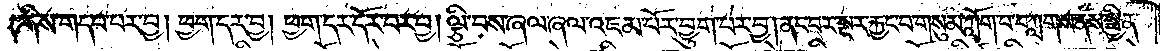གིས་གདབ་པར་བྱ། ཕྱག་དར་བྱ། ཕྱག་དར་དོར་བར་བྱ། ལྕི་བས་ཞལ་ཞལ་འཇམ་པོར་བྱུག་པར་བྱ། ནང་བར་སྔར་རྐྱང་བ་གསུམ་ཀློག་པ་བཀླགས་ནས་སྦྱིན་
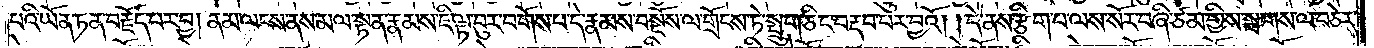པའི་ཡོན་ཏན་བརྗོད་པར་བྱ། ནམ་ལངས་ནས་མལ་སྟན་རྣམས་ཇི་ལྟ་བུར་བགོས་པ་དེ་རྣམས་བསྔོས་ལ་གྲོངས་ཏེ་སྤྲུག་ཅིང་བརྡབ་པར་བྱའོ། །དེ་ནས་རྩིག་པ་ལས་སོར་བཞི་ཙམ་གྱིས་སྦགས་ལ་བཅེར་
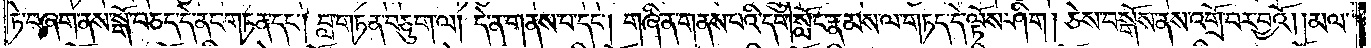ཏེ་བཞག་ནས་སྒོ་བཅད་དེ་ནང་གཏན་དང༌། བླ་གཏན་བཅུག་ལ། དེ་ན་གནས་པ་དང༌། གཞི་ན་གནས་པའི་དགེ་སློང་རྣམས་ལ་གཏད་དེ་ལྟོས་ཤིག །ཅེས་བསྒོས་ནས་འགྲོ་བར་བྱའོ། །མལ་
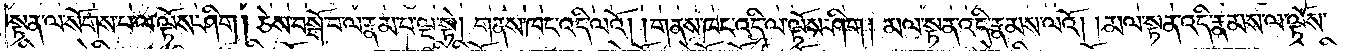སྟན་ལ་སོགས་པ་ལ་ལྟོས་ཤིག །ཅེས་བསྒོ་བ་ལ་རྣམ་པ་ལྔ་སྟེ། གནས་ཁང་འདི་ལའོ། །གནས་ཁང་འདི་ལ་ལྟོས་ཤིག །མལ་སྟན་འདི་རྣམས་ལའོ། །མལ་སྟན་འདི་རྣམས་ལ་ལྟོས་
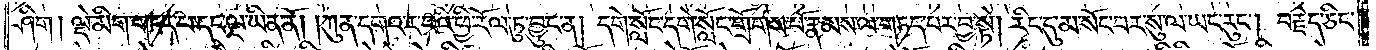ཤིག །ལྡེ་མིག་གཏད་པ་དང་ལྔ་ཡིན་ནོ། །ཀུན་དགའ་ར་བའི་ཕྱི་རོལ་ཏུ་བྱུང་ན། དགེ་སློང་དགེ་སློང་གྲོགས་པོ་རྣམས་ལ་གཏད་པར་བྱ་སྟེ། རིང་དུ་མ་སོང་བར་སུ་ལ་ཡང་རུང༌། བརྗེད་ཅིང་
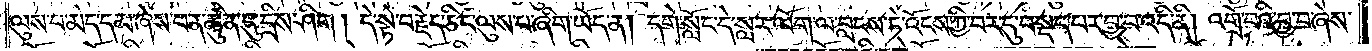ལུས་པ་མེད་དམ་ཞེས་ཕན་ཚུན་དུ་དྲིས་ཤིག །དེ་སྟེ་བརྗེད་ཅིང་ལུས་པ་ཞིག་ཡོད་ན། དགེ་སློང་དེ་སླར་ལོག་ལ་བླངས་ཏེ་འོངས་ཀྱི་བར་དུ་བསྡད་པར་བྱ་བ་འདི་ནི། འགྲོ་བའི་བྱ་བ་ཞེས་
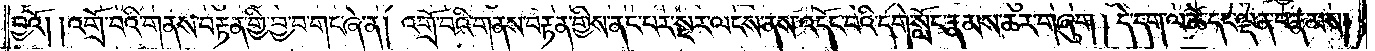བྱའོ། །འགྲོ་བའི་གནས་བརྟན་གྱི་བྱ་བ་གང་ཞེ་ན། འགྲོ་བའི་གནས་བརྟན་གྱིས་ནང་པར་སྔར་ལངས་ནས་འདོང་བའི་དགེ་སློང་རྣམས་ཆར་གཞུག །དེ་དག་ལ་ཚེ་དང་ལྡན་པ་རྣམས།
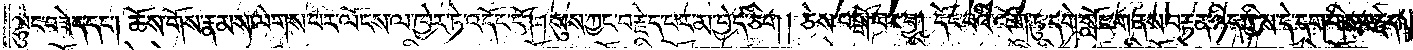ལྷུང་བཟེད་དང༌། ཆོས་གོས་རྣམས་ལེགས་པར་ལོངས་ལ་ཁྱེར་ཏེ་འདོང་ངོ༌། །སུས་ཀྱང་བརྗེད་པར་མ་བྱེད་ཅིག །ཅེས་བསྒོ་བར་བྱ། དོང་བའི་འོག་ཏུ་དགེ་སློང་གནས་བརྟན་ཉིད་ཀྱིས་དེ་དག་གིས་བརྗེད་
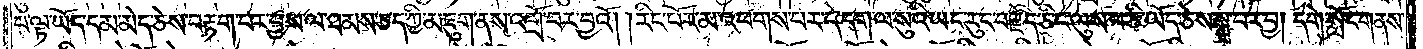པ་ལྟ་ཡོད་དམ་མེད་ཅེས་བརྟག་པར་བྱས་ལ་ཐམས་ཅད་ཀྱི་མཇུག་ནས་འགྲོ་བར་བྱའོ། །རིང་པོར་མ་འཕགས་པར་དེ་དག་ལ་སུའི་ཡང་རུང་བརྗེད་ཅིང་ལུས་པ་ཅི་ཡོད་ཅེས་སྨྲ་བར་བྱ། དགེ་སློང་གནས་
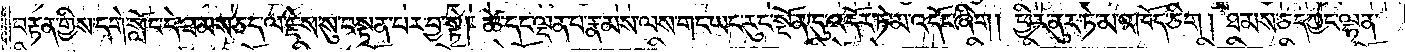བརྟན་གྱིས་དགེ་སློང་དེ་ཐམས་ཅད་ལ་རྗེས་སུ་བསྟན་པར་བྱ་སྟེ། ཚེ་དང་ལྡན་པ་རྣམས་ལས་གང་ཡང་རུང་སྔོན་དུ་འདོར་ཏེ་མ་འདོང་ཞིག །ཕྱིར་ནུར་ཏེ་མ་འཁོད་ཅིག། ཐམས་ཅད་ཀྱང་ལྷན་
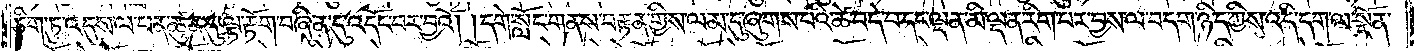ཅིག་ཏུ་འདུས་ལ་ཕན་ཚུན་དུ་ལྟ་རྟོག་བཞིན་དུ་འདོང་བར་བྱའོ། །དགེ་སློང་གནས་བརྟན་གྱིས་ལམ་དུ་ཞུགས་པའི་ཚེ་བདེ་བ་དང་ལྡན་མི་ལྡན་རིག་པར་བྱས་ལ་བདག་ཉིད་ཀྱིས་འདི་དག་ལ་སྔོན་
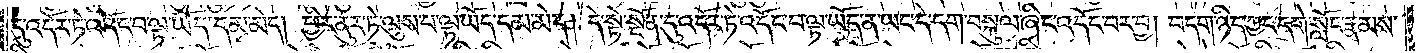དུ་འདོར་ཏེ་འདོང་བ་ལྟ་ཡོད་དམ་མེད། ཕྱིར་ནུར་ཏེ་ལུས་པ་ལྟ་ཡོད་དམ་མེད། དེ་སྟེ་སྔོན་དུ་འདོར་ཏེ་འདོང་བ་ལྟ་ཡོད་ན་ཡང་དེ་དག་བསྐུལ་ཞིང་འདོང་བར་བྱ། བདག་ཉིད་ཀྱང་དགེ་སློང་རྣམས་
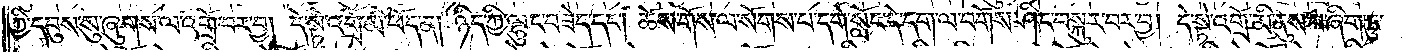ཀྱི་དབུས་སུ་ཞུགས་ལ་འགྲོ་བར་བྱ། དེ་སྟེ་འགྲོ་མི་ཕོད་ན། ཉིད་ཀྱི་ལྷུང་བཟེད་དང༌། ཆོས་གོས་ལ་སོགས་པ་དགེ་སློང་དེ་དག་ལ་བགོས་ཤིང་བསྐུར་བར་བྱ། དེ་སྟེ་འགྲོ་མི་ནུས་པ་ཞིག་ཏུ་
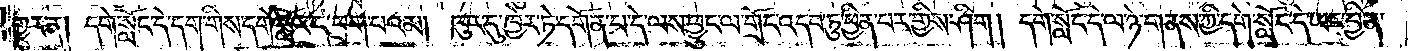གྱུར་ན། དགེ་སློང་དེ་དག་གིས་དགེ་སློང་དེ་ཕྲག་པའམ། ཁུར་དུ་ཁྱེར་ཏེ་དགོན་པ་དེ་ལས་ཕྱུང་ལ་གྲོང་འདབ་ཏུ་ཕྱིན་པར་གྱིས་ཤིག །དགེ་སློང་དེ་ལ་ཉེ་གནས་ཀྱི་དགེ་སློང་དེ་ཡང་བྱིན་
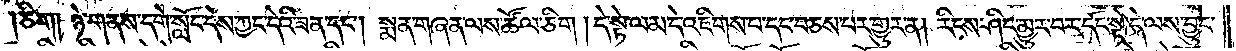ཅིག །ཉེ་གནས་དགེ་སློང་དེས་ཀྱང་དེའི་ཟན་དང༌། སྨན་གཞན་ལས་ཚོལ་ཅིག །དེ་སྟེ་ལམ་དེ་འཇིགས་པ་དང་བཅས་པར་གྱུར་ན། རིངས་ཤིང་མྱུར་བར་དོང་སྟེ་དེ་ལས་བྱུང་
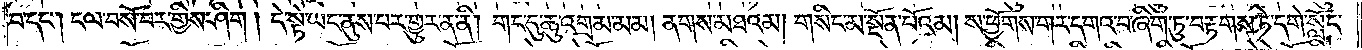བ་དང༌། ངལ་བསོ་བར་གྱིས་ཤིག །དེ་སྟེ་ཡང་ནུས་པར་གྱུར་ན་ནི། གང་དུ་ཆུ་འགྲམ་མམ། ནགས་མཐའ་མ། གསིང་མ་སྔོན་པོའམ། ས་ཕྱོགས་གར་དགའ་བ་ཞིག་ཏུ་བརྟགས་ཏེ་དགེ་སློང་
